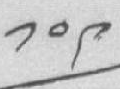༡༠༩
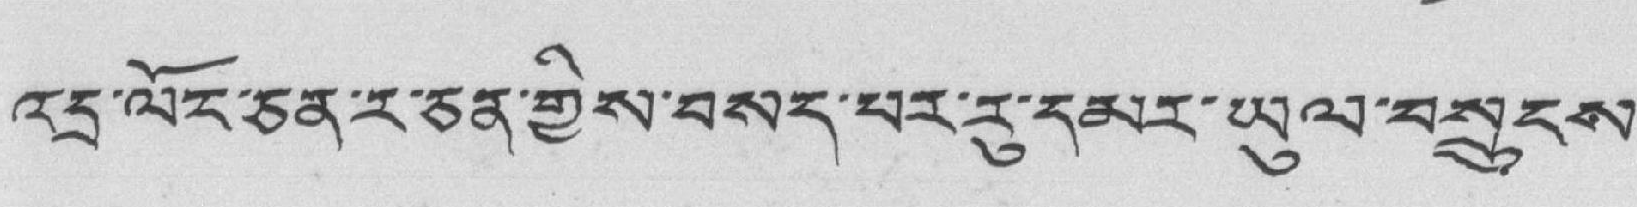འདྲ་ལོང་ཅན་ར་ཅན་གྱིས་བསད་པར་རུ་དམར་ཡུལ་བསྲུངས་
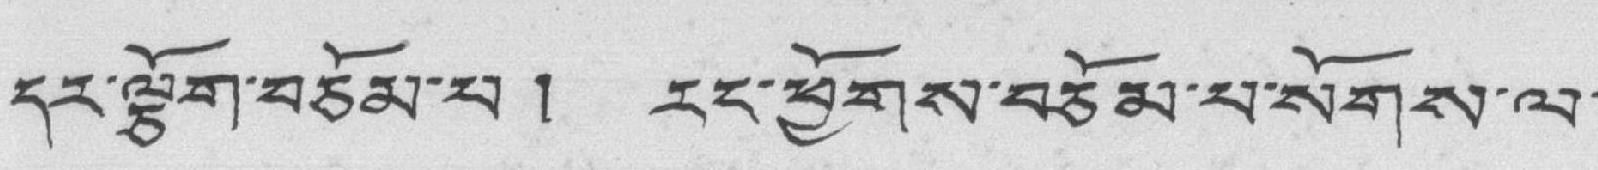དར་ལྕོག་བཅོམ་པ། རང་ཕྱོགས་བཅོམ་པ་སོགས་ལ་
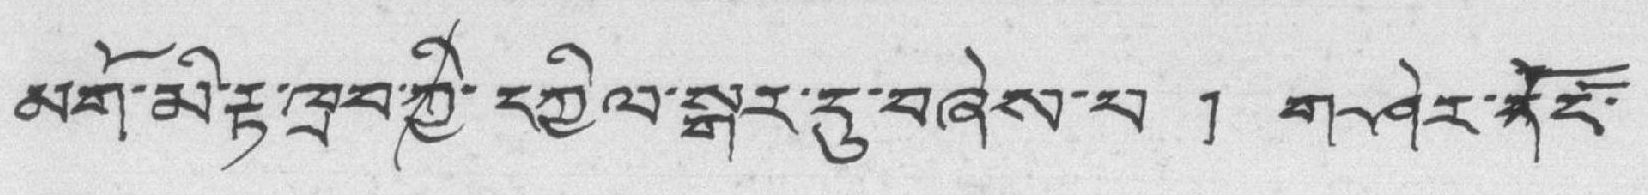མགོ་མི་རྟ་ཁྲབ་ཀྱི་དཀྱིལ་སྒར་དུ་བཞེས་པ ། ག་ཤེར་དོངོ་
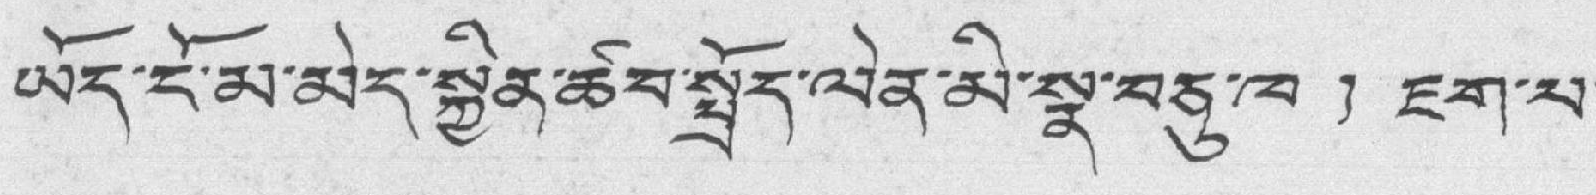ཡོད་ངོ་མ་མེད་སྐྱིན་ཚབ་སྤྲོད་ལེན་མི་སྣ་བཅུ་ཁ ། ཇག་པ་
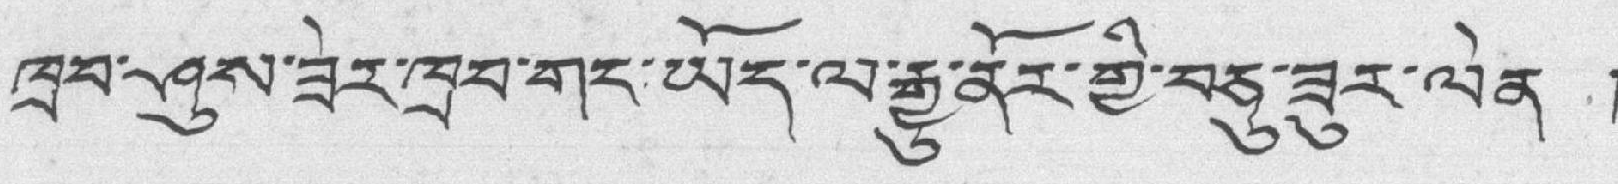ཁྲབ་ཤུས་ཟེར་ཁྲབ་གང་ཡོད་ལ་རྒྱུ་ནོར་གྱི་བཅུ་ཟུར་ལེན །
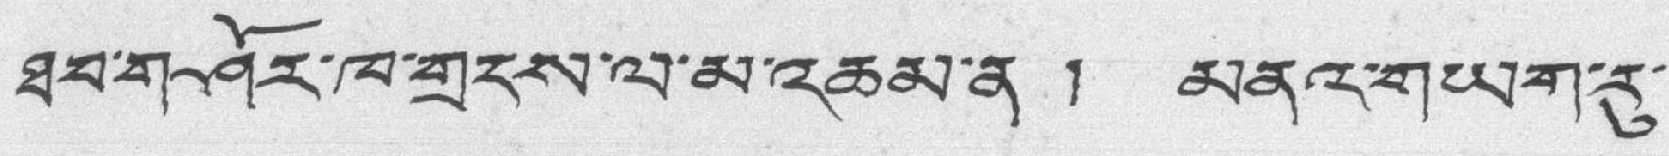ཐབ་གཤཤོར་ཁ་གྲངས་ལ་མ་འཆམ་ན ། མནའ་གཡིག་རུ་
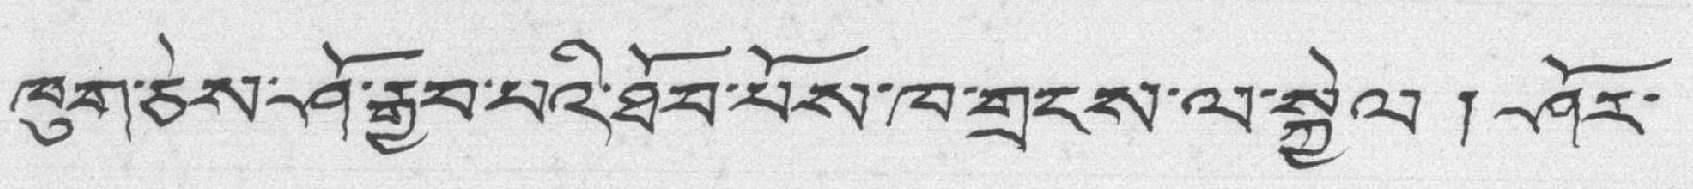ཁུག་ཅེས་ཤོ་རྒྱབ་པའི་ཐོབ་པོས་ཁ་གྲངས་ལ་སྐྱེལ ། ཤོར་
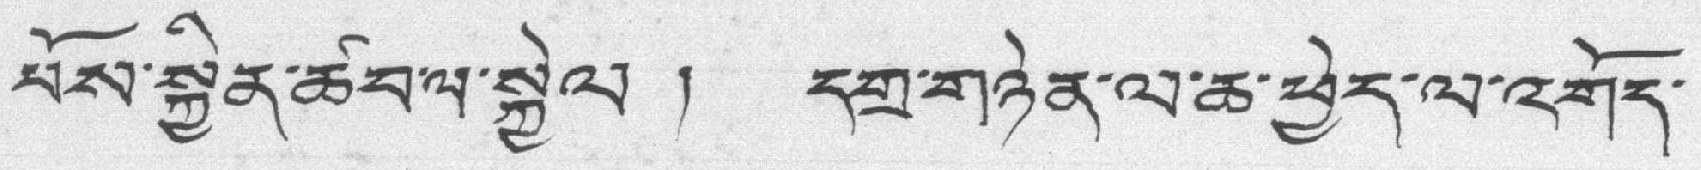པོས་སྐྱོན་ཚབ་ལ་སྐྱེལ ། དགྲ་གཉེན་ལ་ཆ་ཕྱེད་ལ་འགོད་
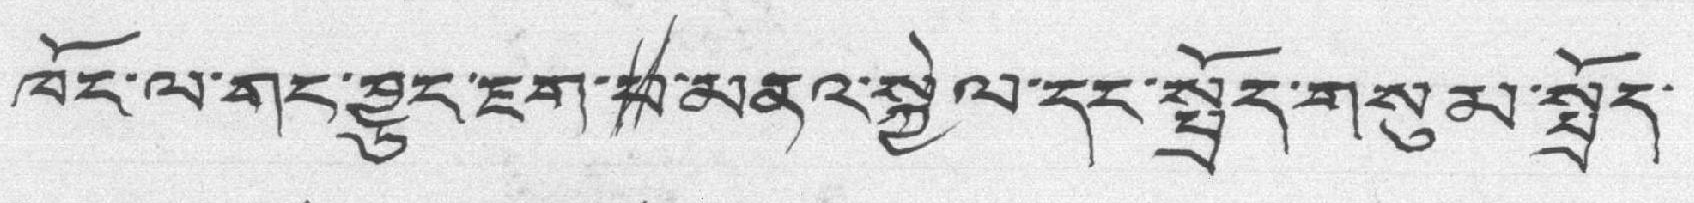ཁོང་ལ་གང་བྱུང་ཇག་པ་མནའ་སྐྱེལ་དང་སྤྲོད་གསུམ་སྤྲོད་
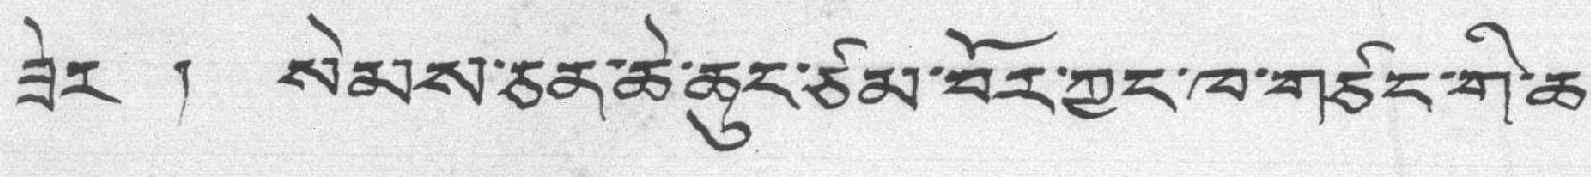ཟེར ། སེམས་ཅན་ཆེ་ཆུང་ཙམ་བོར་ཀྱང་ཁ་གཙང་གི་ཆ་
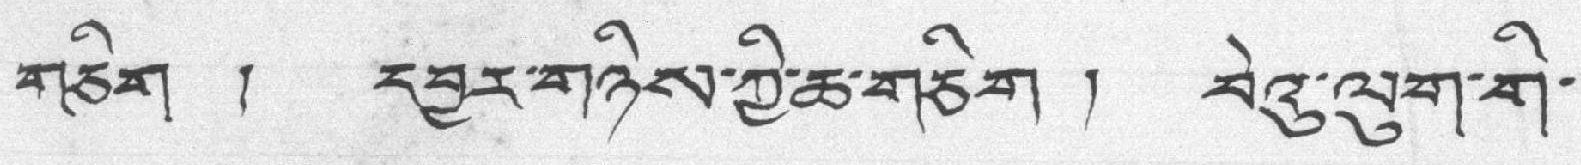གཅིག ། དབྱར་གཉིས་ཀྱི་ཆ་གཅིག ། བེའུ་ལུག་གི་
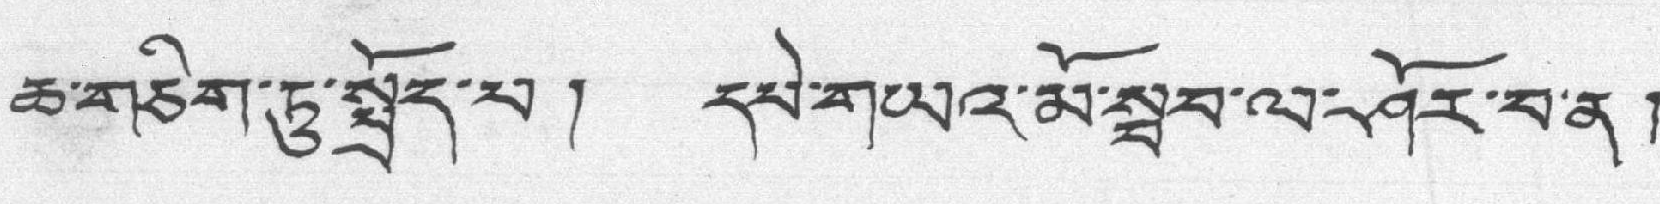ཆ་གཅིག་ཏུ་སྤྲོད་པ ། དམེ་གཡའ་མ་སྦབ་ལ་ཤོར་བ་ན །
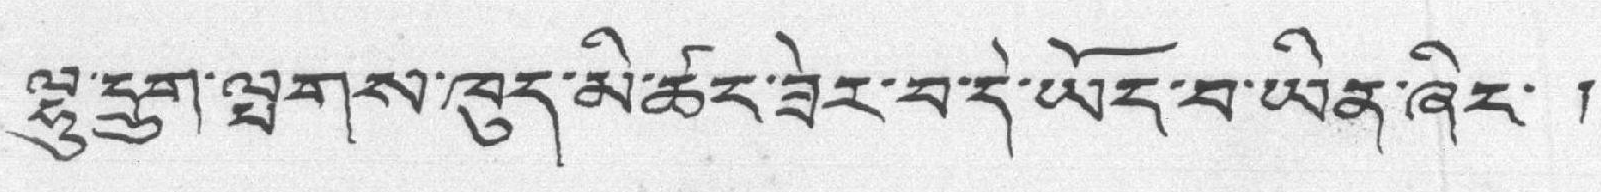ལྷུ་དྲུག་ལྤགས་ཁུད་མི་ཚང་ཟེར་བ་དེ་ཡོད་བ་ཡིན་ཞིང་ །
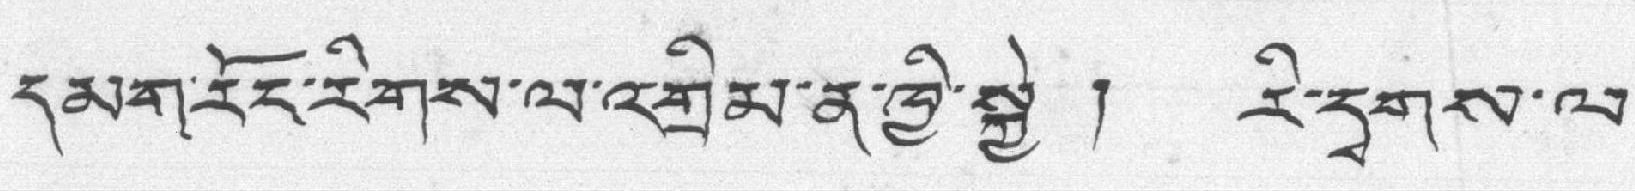དམག་རོང་རིགས་ལ་འགྲིམ་ན་ཁྱི་སྐྱེ ། རི་དྭགས་ལ་
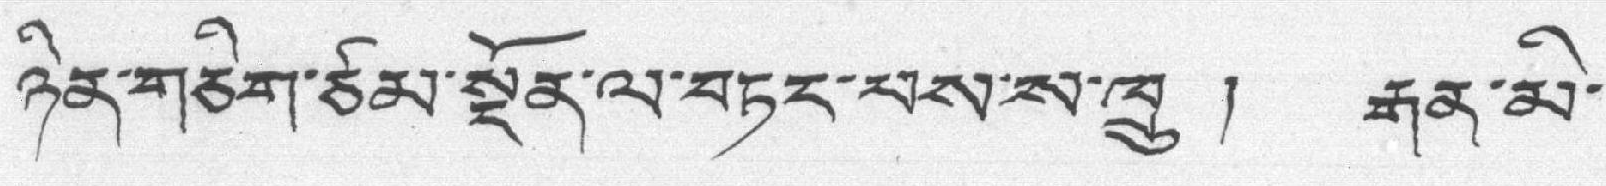ཉིན་གཅིག་ཙམ་སྔོན་ལ་བཏང་པས་ས་ཁྲུ ། རྒན་མི་
